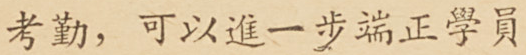考勤，可以進一步端正學員
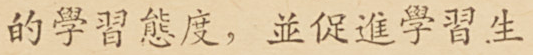的學習態度，並促進學習生
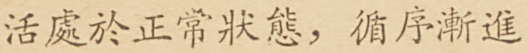活處於正常狀態，循序漸進
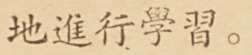地進行學習。
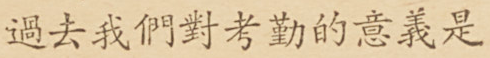過去我們對考勤的意義是
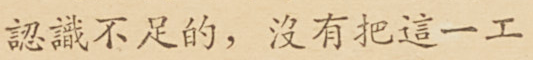認識不足的，沒有把這一工
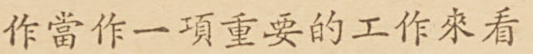作當作一項重要的工作來看
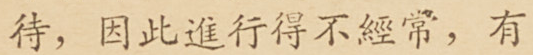待，因此進行得不經常，有
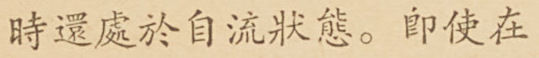時還處於自流狀態。卽使在
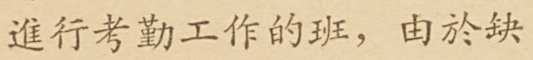進行考勤工作的班，由於缺
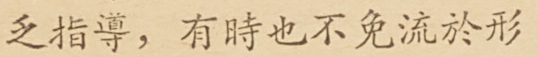乏指導，有時也不免流於形
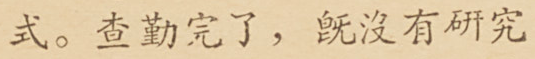式。查勤完了，旣沒有研究
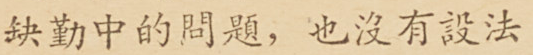缺勤中的問題，也沒有設法
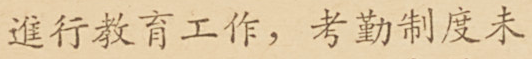進行教育工作，考勤制度未
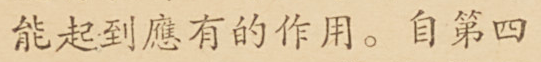能起到應有的作用。自第四
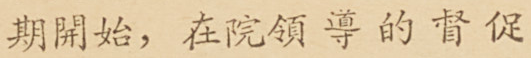期開始，在院領導的督促
